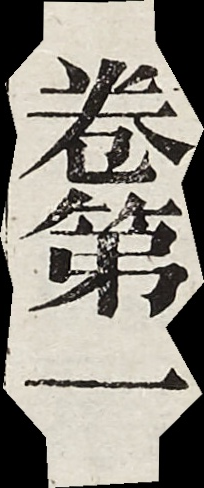卷第一
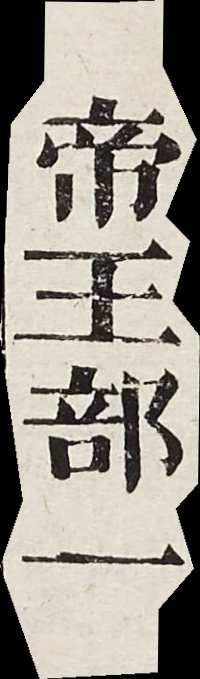帝王部一
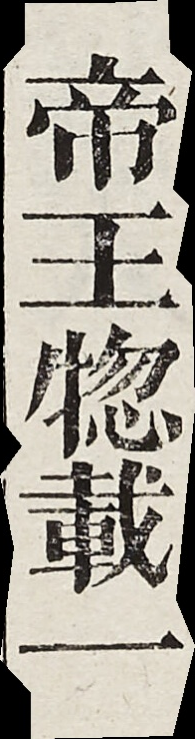帝王摠載一
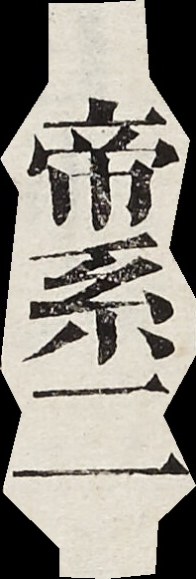帝系二
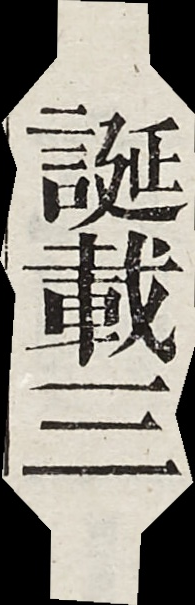誕載三
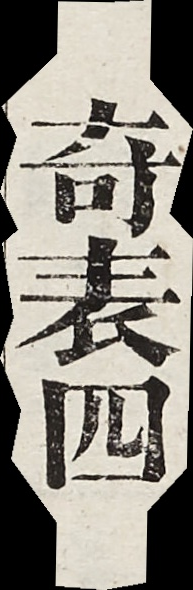奇表四
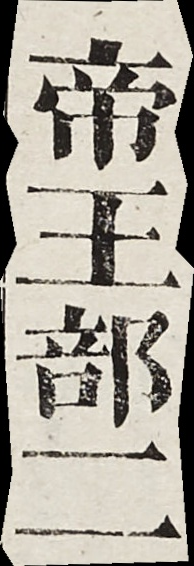帝王部二
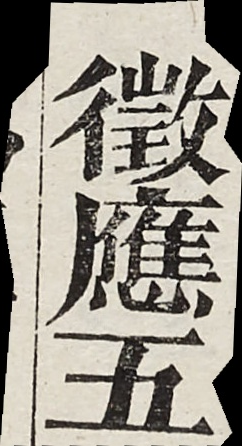徵應五
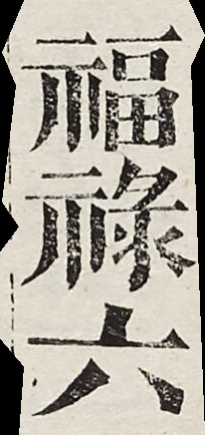福祿六
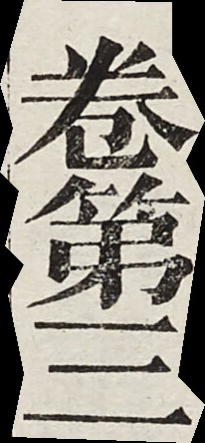卷第三
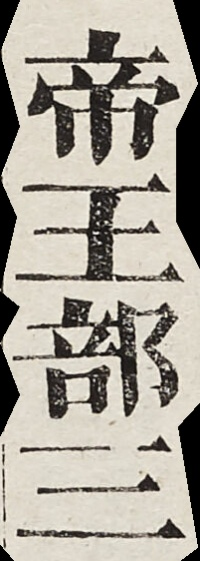帝王部三
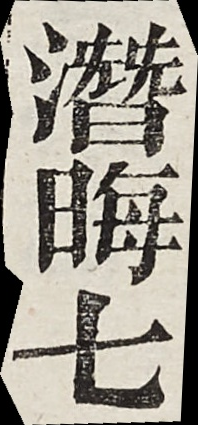潛晦七
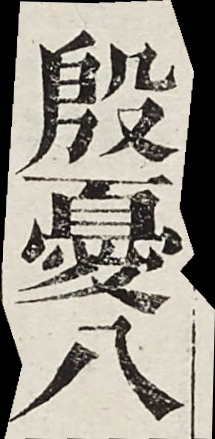殷憂八
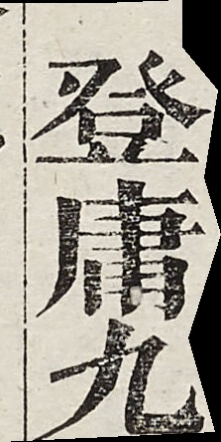登庸九
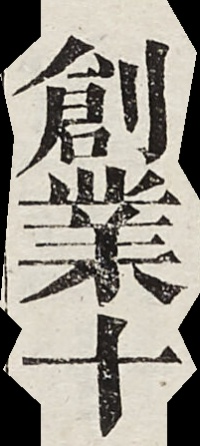創業十
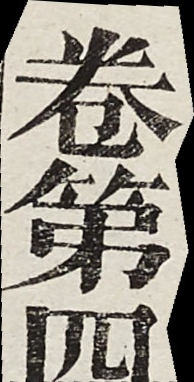卷第四
